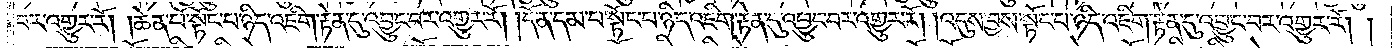བར་འགྱུར་རོ། །ཆེན་པོ་སྟོང་པ་ཉིད་འཇིག་རྟེན་དུ་འབྱུང་བར་འགྱུར་རོ། །དོན་དམ་པ་སྟོང་པ་ཉིད་འཇིག་རྟེན་དུ་འབྱུང་བར་འགྱུར་རོ། །འདུས་བྱས་སྟོང་པ་ཉིད་འཇིག་རྟེན་དུ་འབྱུང་བར་འགྱུར་རོ། །
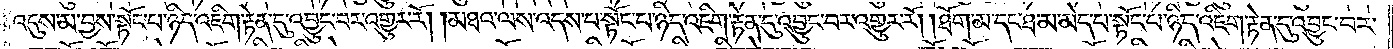འདུས་མ་བྱས་སྟོང་པ་ཉིད་འཇིག་རྟེན་དུ་འབྱུང་བར་འགྱུར་རོ། །མཐའ་ལས་འདས་པ་སྟོང་པ་ཉིད་འཇིག་རྟེན་དུ་འབྱུང་བར་འགྱུར་རོ། །ཐོག་མ་དང་ཐ་མ་མེད་པ་སྟོང་པ་ཉིད་འཇིག་རྟེན་དུ་འབྱུང་བར་
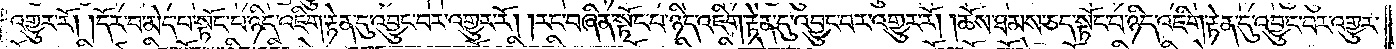འགྱུར་རོ། །དོར་བ་མེད་པ་སྟོང་པ་ཉིད་འཇིག་རྟེན་དུ་འབྱུང་བར་འགྱུར་རོ། །རང་བཞིན་སྟོང་པ་ཉིད་འཇིག་རྟེན་དུ་འབྱུང་བར་འགྱུར་རོ། །ཆོས་ཐམས་ཅད་སྟོང་པ་ཉིད་འཇིག་རྟེན་དུ་འབྱུང་བར་འགྱུར་
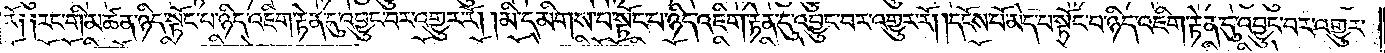རོ༑༑རང་གི་མཚན་ཉིད་སྟོང་པ་ཉིད་འཇིག་རྟེན་དུ་འབྱུང་བར་འགྱུར་རོ། །མི་དམིགས་པ་སྟོང་པ་ཉིད་འཇིག་རྟེན་དུ་འབྱུང་བར་འགྱུར་རོ། །དངོས་པོ་མེད་པ་སྟོང་པ་ཉིད་འཇིག་རྟེན་དུ་འབྱུང་བར་འགྱུར་
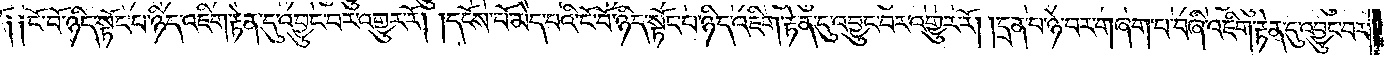༑ ༑ངོ་བོ་ཉིད་སྟོང་པ་ཉིད་འཇིག་རྟེན་དུ་འབྱུང་བར་འགྱུར་རོ། །དངོས་པོ་མེད་པའི་ངོ་བོ་ཉིད་སྟོང་པ་ཉིད་འཇིག་རྟེན་དུ་འབྱུང་བར་འགྱུར་རོ། །དྲན་པ་ཉེ་བར་གཞག་པ་བཞི་འཇིག་རྟེན་དུ་འབྱུང་བར་
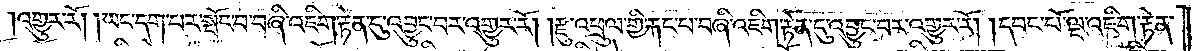འགྱུར་རོ། །ཡང་དག་པར་སྤོང་བ་བཞི་འཇིག་རྟེན་དུ་འབྱུང་བར་འགྱུར་རོ། །རྫུ་འཕྲུལ་གྱི་རྐང་པ་བཞི་འཇིག་རྟེན་དུ་འབྱུང་བར་འགྱུར་རོ། །དབང་པོ་ལྔ་འཇིག་རྟེན་
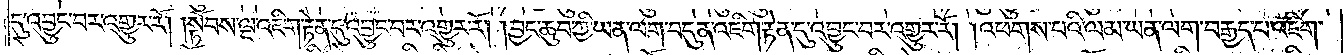དུ་འབྱུང་བར་འགྱུར་རོ། །སྟོབས་ལྔ་འཇིག་རྟེན་དུ་འབྱུང་བར་འགྱུར་རོ། །བྱང་ཆུབ་ཀྱི་ཡན་ལག་བདུན་འཇིག་རྟེན་དུ་འབྱུང་བར་འགྱུར་རོ། །འཕགས་པའི་ལམ་ཡན་ལག་བརྒྱད་པ་འཇིག་
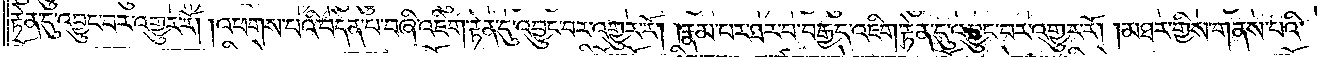རྟེན་དུ་འབྱུང་བར་འགྱུར་རོ། །འཕགས་པའི་བདེན་པ་བཞི་འཇིག་རྟེན་དུ་འབྱུང་བར་འགྱུར་རོ། །རྣམ་པར་ཐར་པ་བརྒྱད་འཇིག་རྟེན་དུ་འབྱུང་བར་འགྱུར་རོ། །མཐར་གྱིས་གནས་པའི་
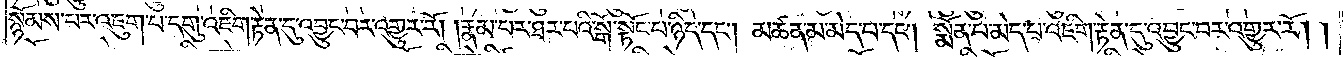སྙོམས་པར་འཇུག་པ་དགུ་འཇིག་རྟེན་དུ་འབྱུང་བར་འགྱུར་རོ། །རྣམ་པར་ཐར་པའི་སྒོ་སྟོང་པ་ཉིད་དང༌། མཚན་མ་མེད་པ་དང༌། སྨོན་པ་མེད་པ་འཇིག་རྟེན་དུ་འབྱུང་བར་འགྱུར་རོ། །
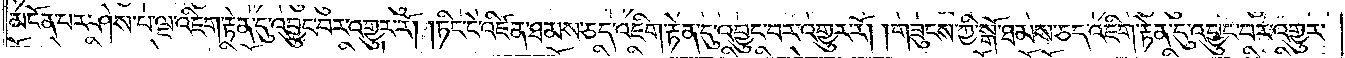མངོན་པར་ཤེས་པ་ལྔ་འཇིག་རྟེན་དུ་འབྱུང་བར་འགྱུར་རོ། །ཏིང་ངེ་འཛིན་ཐམས་ཅད་འཇིག་རྟེན་དུ་འབྱུང་བར་འགྱུར་རོ། །གཟུངས་ཀྱི་སྒོ་ཐམས་ཅད་འཇིག་རྟེན་དུ་འབྱུང་བར་འགྱུར་
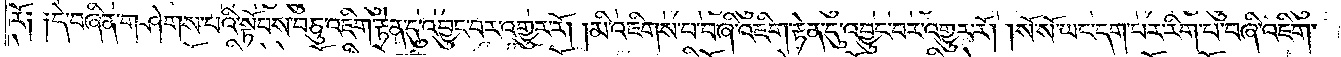རོ༑ ༑དེ་བཞིན་གཤེགས་པའི་སྟོབས་བཅུ་འཇིག་རྟེན་དུ་འབྱུང་བར་འགྱུར་རོ། །མི་འཇིགས་པ་བཞི་འཇིག་རྟེན་དུ་འབྱུང་བར་འགྱུར་རོ། །སོ་སོ་ཡང་དག་པར་རིག་པ་བཞི་འཇིག་
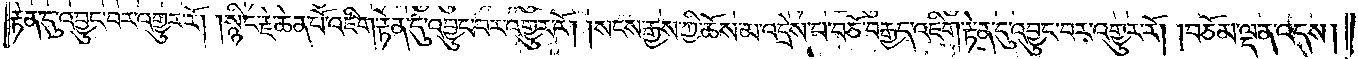རྟེན་དུ་འབྱུང་བར་འགྱུར་རོ། །སྙིང་རྗེ་ཆེན་པོ་འཇིག་རྟེན་དུ་འབྱུང་བར་འགྱུར་རོ། །སངས་རྒྱས་ཀྱི་ཆོས་མ་འདྲེས་པ་བཅོ་བརྒྱད་འཇིག་རྟེན་དུ་འབྱུང་བར་འགྱུར་རོ། །བཅོམ་ལྡན་འདས།
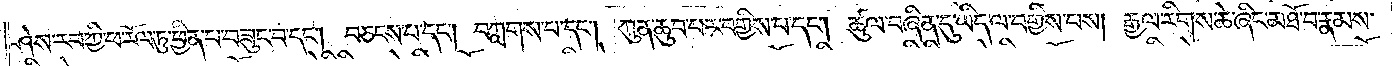ཤེས་རབ་ཀྱི་ཕ་རོལ་ཏུ་ཕྱིན་པ་བཟུང་བ་དང༌། བཅངས་པ་དང༌། བཀླགས་པ་དང༌། ཀུན་ཆུབ་པར་བགྱིས་པ་དང༌། ཚུལ་བཞིན་དུ་ཡིད་ལ་བགྱིས་པས། རྒྱལ་རིགས་ཆེ་ཞིང་མཐོ་བ་རྣམས་
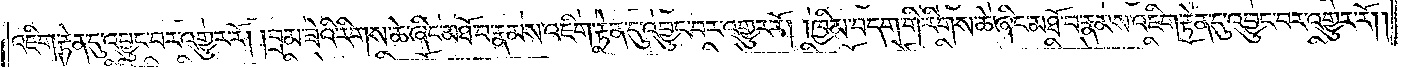འཇིག་རྟེན་དུ་འབྱུང་བར་འགྱུར་རོ། །བྲམ་ཟེའི་རིགས་ཆེ་ཞིང་མཐོ་བ་རྣམས་འཇིག་རྟེན་དུ་འབྱུང་བར་འགྱུར་རོ། །ཁྱིམ་བདག་གི་རིགས་ཆེ་ཞིང་མཐོ་བ་རྣམས་འཇིག་རྟེན་དུ་འབྱུང་བར་འགྱུར་རོ། །
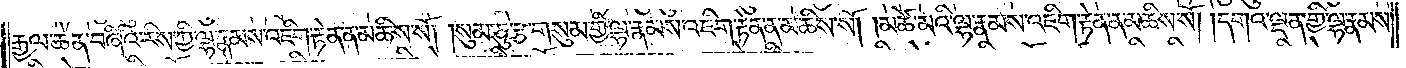རྒྱལ་ཆེན་བཞིའི་རིས་ཀྱི་ལྷ་རྣམས་འཇིག་རྟེན་ན་མཆིས་སོ། །སུམ་ཅུ་རྩ་གསུམ་གྱི་ལྷ་རྣམས་འཇིག་རྟེན་ན་མཆིས་སོ། །མཚེ་མའི་ལྷ་རྣམས་འཇིག་རྟེན་ན་མཆིས་སོ། །དགའ་ལྡན་གྱི་ལྷ་རྣམས་
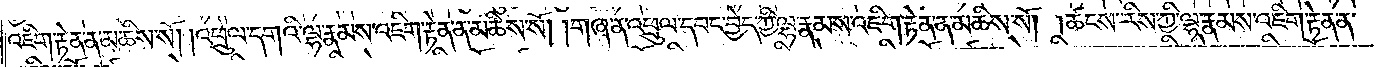འཇིག་རྟེན་ན་མཆིས་སོ། །འཕྲུལ་དགའི་ལྷ་རྣམས་འཇིག་རྟེན་ན་མཆིས་སོ། །གཞན་འཕྲུལ་དབང་བྱེད་ཀྱི་ལྷ་རྣམས་འཇིག་རྟེན་ན་མཆིས་སོ། །ཚངས་རིས་ཀྱི་ལྷ་རྣམས་འཇིག་རྟེན་ན་
